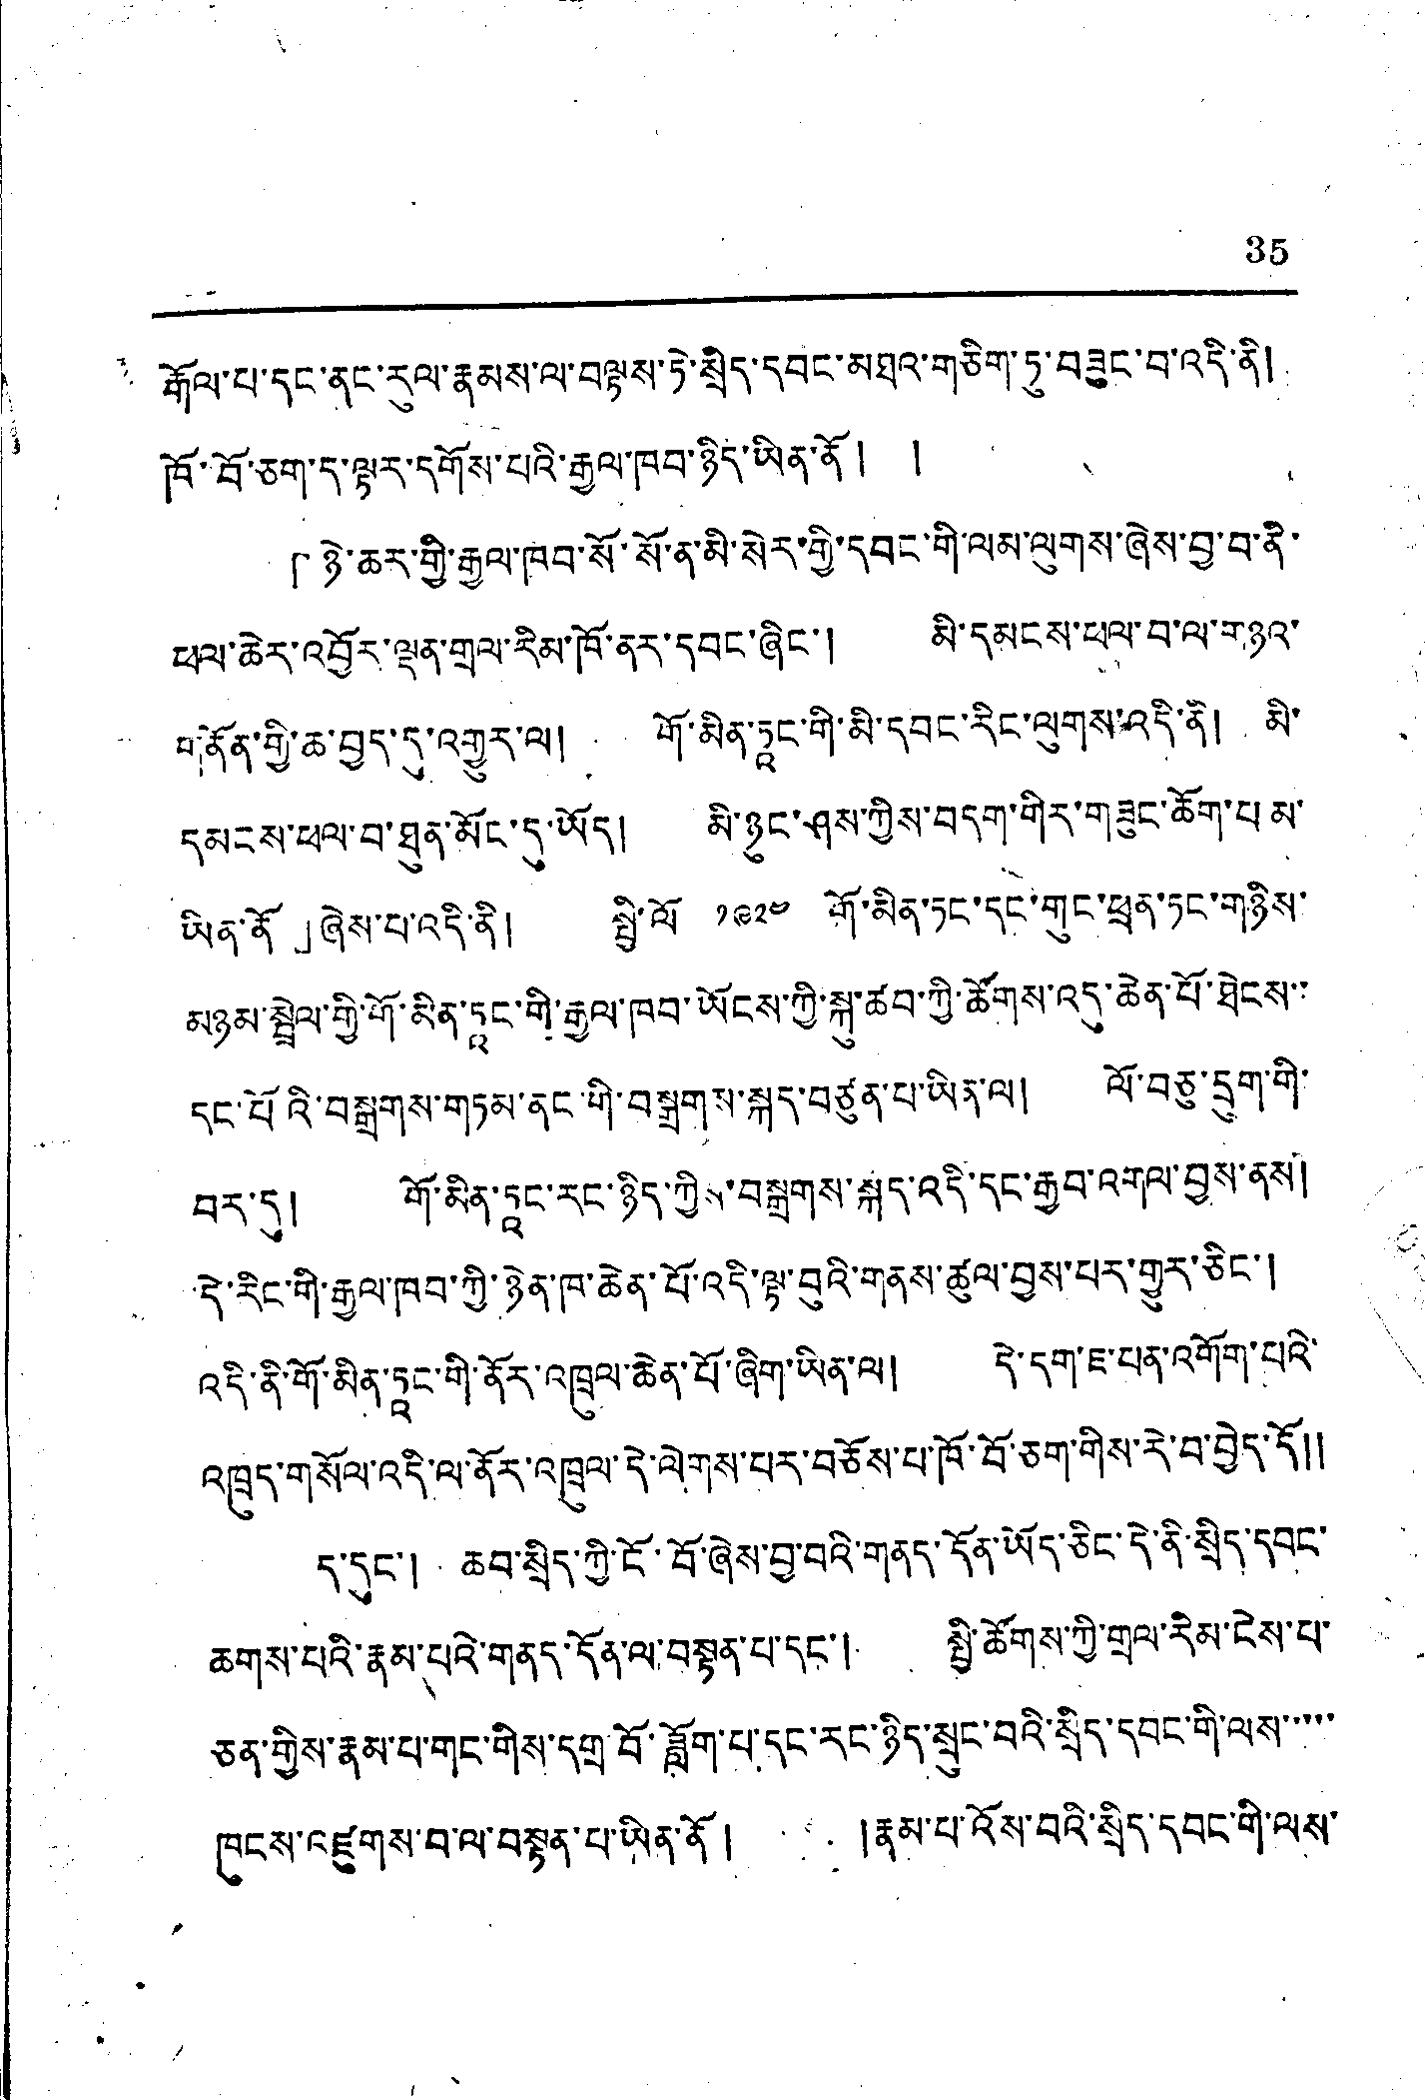35
རྒོལ་པ་དང་ནང་རུལ་རྣམས་ལ་བལྟས་ཏེ་སྲིད་དབང་མཐའ་གཅིག་ཏུ་བཟུང་བ་འདི་ནི།
ཁོ་བོ་ཅག་ད་ལྟར་དགོས་པའི་རྒྱལ་ཁབ་ཉིས་ཡིན་ནོ། །
「ཉེ་ཆར་གྱི་རྒྱལ་ཁབ་སོ་སོ་ན་མི་སེར་གྱི་དབང་གི་ལམ་ལུགས་ཞེས་བྱ་བ་ནི།
ཕལ་ཆེར་འབྱོར་ལྡན་གྲལ་རིམ་ཁོ་ནར་དབང་ཞིང་། མི་དམངས་ཕལ་བ་ལ་གཉའ་
གནོན་གྱི་ཆ་བྱད་དུ་འགྱུར་ལ། གོ་མིན་ཏཱང་གི་མི་དབང་རིང་ལུགས་འདི་ནི། མི་
དམངས་ཕལ་བ་ཐུན་མོང་དུ་ཡོད། མི་ཉུང་ཤས་ཀྱིས་བདག་གིར་གཟུང་ཆོག་པ མ་
ཡིན་ནོ」ཞེས་པ་འདི་ནི། སྤྱི་ལོ ༡༩༢༤ གོ་མིན་ཏང་དང་གུང་ཕྲན་ཏང་གཉིས་
མཉམ་སྦྲེལ་གྱི་གོ་མིན་ཏཱང་གི་རྒྱལ་ཁབ་ཡོངས་ཀྱི་སྐུ་ཚབ་ཀྱི་ཚོགས་འདུ་ཆེན་པོ་ཐེངས་་
དང་པོའི་བསྒྲགས་གཏམ་ནང་གི་བསྒྲགས་སྐད་བཙུན་པ་ཡིན་ལ། ལོ་བཅུ་དྲུག་གི་
བར་དུ། གོ་མིན་ཏཱང་རང་ཉིད་ཀྱིས་བསྒྲགས་སྐད་འདི་དང་རྒྱབ་འགལ་བྱས་ནས།
དེ་རིང་གི་རྒྱལ་ཁབ་ཀྱི་ཉེན་ཁ་ཆེན་པོ་འདི་ལྟ་བུའི་གནས་ཚུལ་བྱས་པར་གྱུར་ཅིང་།
འདི་ནི་གོ་མིན་ཏཱང་གི་ནོར་འཁྲུལ་ཆེན་པོ་ཞིག་ཡིན་ལ། དེ་དག་ཇ་པན་འགོག་པའི་
འཁྲུད་གསོལ་འདི་ལ་ནོར་འཁྲུལ་དེ་ལེགས་པར་བཅོས་པ་ཁོ་བོ་ཅག་གིས་རེ་བ་བྱེད་དོ༎
ད་དུང་། ཆབ་སྲིད་ཀྱི་ངོ་བོ་ཞེས་བྱ་བའི་གནད་དོན་ཡོད་ཅིང་དེ་ནི་སྲིད་དབང་
ཆགས་པའི་རྣམ་པའི་གནད་དོན་ལ་བསྟན་པ་དང་། སྤྱི་ཚོགས་ཀྱི་གྲལ་རིམ་ངེས་པ་
ཅན་གྱིས་རྣམ་པ་གང་གིས་དགྲ་བོ་ཟློག་པ་དང་རང་ཉིད་སྲུང་བའི་སྲིད་དབང་གི་ལས་་་་་
ཁུངས་འཛུགས་བ་ལ་བསྟན་པ་ཡིན་ནོ། །རྣམ་པ་འོས་བའི་སྲིད་དབང་གི་ལས་
